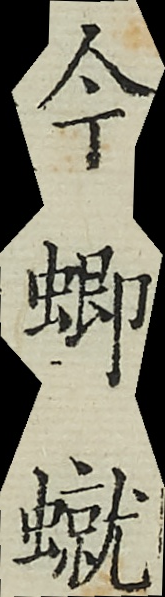今蝍？
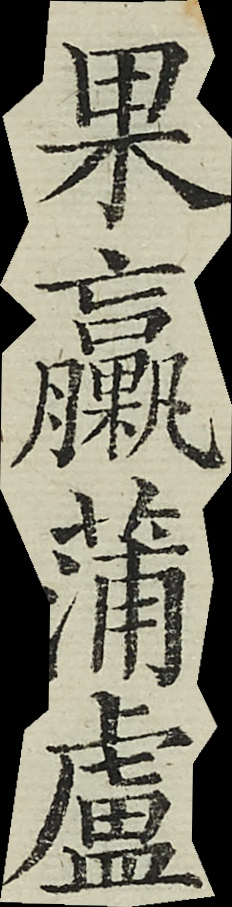果臝蒲盧
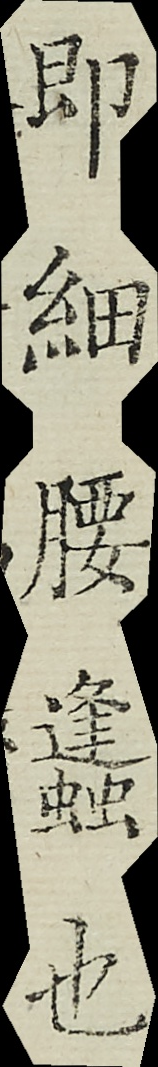即細腰蜂也
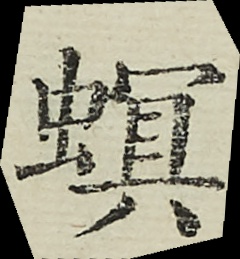螟
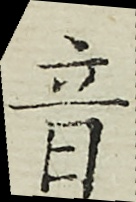音
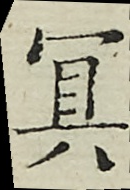冥
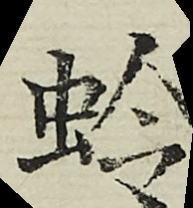蛉
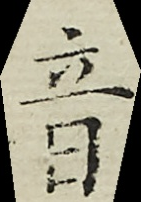音
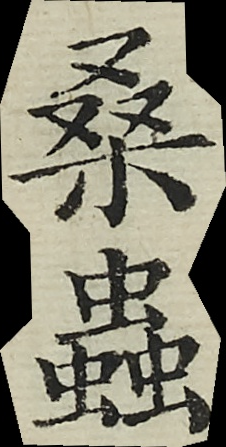桑蟲
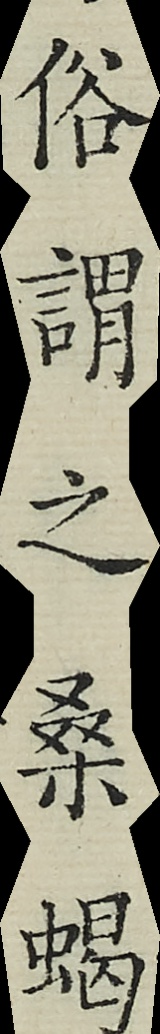俗謂之桑蝎
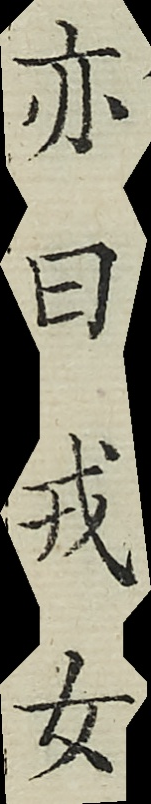亦曰戎女
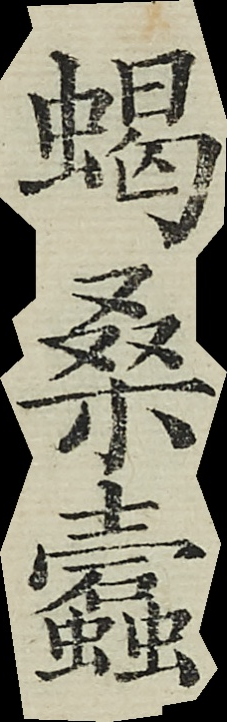蠍桑蠹
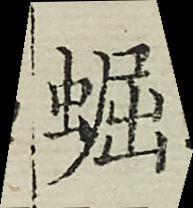䖦
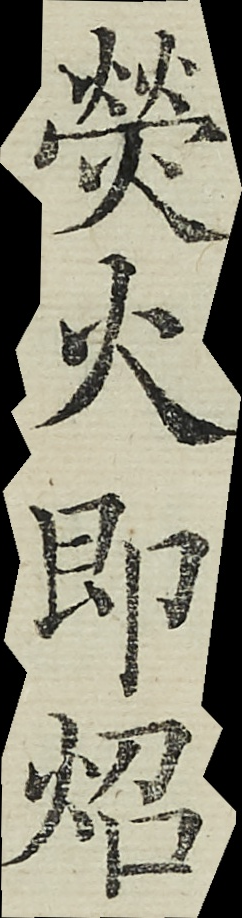螢火即炤
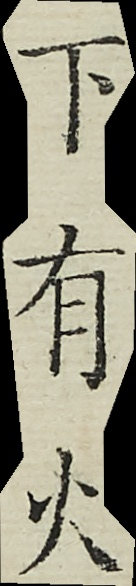下有火
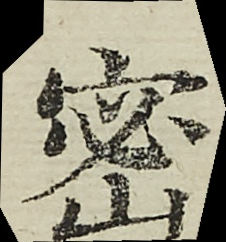密
